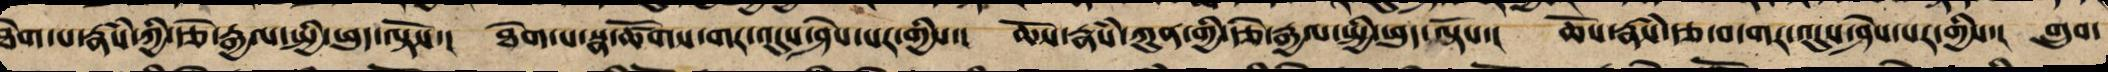ཐེག་པ་རྣཾས་ཀྱི་རྩེ་རྒྱལ་སྤྱི་ཕུད་ལྟོས་། ཐེག་པ་སྣ་ཚོགས་གར་འདུས་ཤེས་པར་གྱིས་། ཆོས་རྣཾས་ཀུན་གྱི་རྩེ་རྒྱལ་སྤྱི་ཕུད་ལྟོས་། ཆོས་རྣཾས་རྩ་བ་གར་འདུས་ཤེས་པར་གྱིས་། གྲུབ་
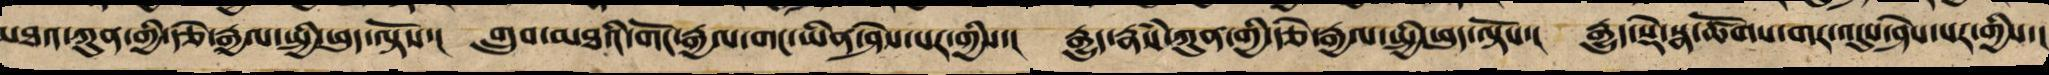མཐའ་ཀུན་གྱི་རྩེ་རྒྱལ་སྤྱི་ཕུད་ལྟོས་། གྲུབ་མཐའི་གོང་རྒྱལ་གང་ཡིན་ཤེས་པར་གྱིས་། རྒྱུད་རྣཾས་ཀུན་གྱི་རྩེ་རྒྱལ་སྤྱི་ཕུད་ལྟོས་། རྒྱུད་སྡེ་སྣ་ཚོགས་གར་འདུས་ཤེས་པར་གྱིས་།
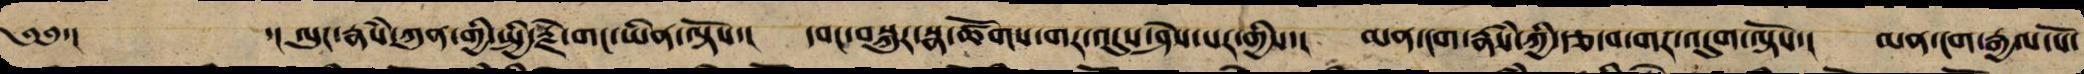༄༅་།  ་། ལུང་རྣཾས་ཀུན་གྱི་སྤྱི་རྗེ་གང་ཡིན་ལྟོས་། དབང་བསྐུར་གར་འདུས་ཤེས་པར་གྱིས་། མན་ངག་རྣཾས་ཀྱི་རྩ་བ་གར་འདུས་ལྟོས་། མན་ངག་རྒྱལ་པོ་
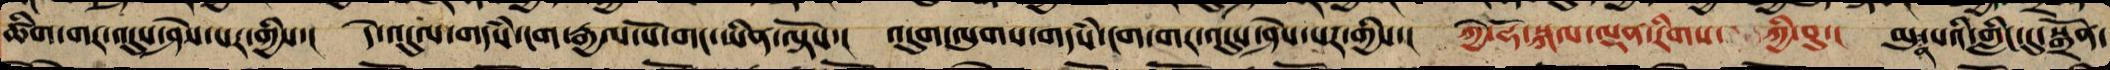ཚིག་གར་འདུས་ཤེས་པར་གྱིས་། དེ་འདུལ་གདཾས་ངག་རྒྱལ་པོ་གང་ཡིན་ལྟོས་། འདུག་ལུགས་གདཾས་ངག་གར་འདུས་ཤེས་པར་གྱིས་། ཀྱེ་ཧོ་སྐལ་ལྡན་རིགས་ཀྱི་བུ་། མུན་པའི་གླིང་དུ་སྒྲོན་
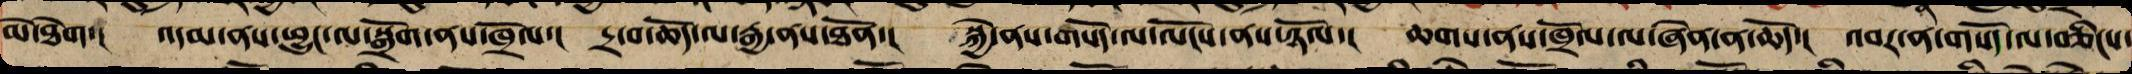མེ་ཐེག་། འདམ་ནས་ཕྱུང་ལ་སྒྲོག་ནས་ཁྲོལ་། དྲ་བ་ཆོད་ལ་རྒྱ་ནས་ཐོན་། སྐྱེ་ན་སོད་ལ་ལངས་ན་ཉོལ་། ཆགས་ནས་ཁྲོལ་ལ་ཞེན་ན་ཆོད་། འབར་ན་གསོད་ལ་བཅིངས་
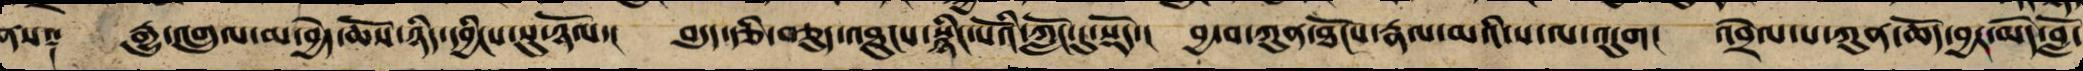ནས༑ རྒྱུ་འགྲུལ་མ་བྱེད་ཆོས་ཉིད་དབྱིངས་སུ་ཉོལ་། བདུད་རྩིའི་བཅུད་འཐུངས་སྙིང་པོའི་ཀློང་དུ་སྡོད་། བྱ་བ་ཀུན་ཐོངས་རྣལ་མའི་ས་ལ་འདུག་ འབྲེལ་པ་ཀུན་ཆོད་བྱར་མེད་བློ་
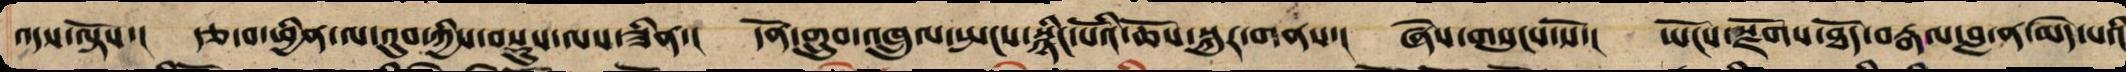འདས་ལྟོས་། རྩ་བ་ཕྱིན་ལ་འུབ་ཀྱིས་བསྡུས་ལས་རྣམས་ཟིན་། དོན་གྲུབ་འཁྲུལ་སྤངས་སྙིང་པོའི་ཆོས་སྐུར་གནས་། ཞེས་གསུངས་སོ་། ཡོངས་སྫོགས་ཐོད་བརྒལ་བླ་ན་མེད་པའི
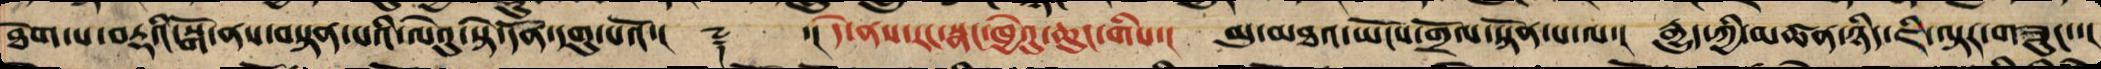ཐེག་པ་བརྡའི་སྒོ་ནས་བསྟན་པའི་ལེའུ་སྟེ་དོན་དགུ་པའོ་།། ༈ ་། དེ་ནས་རང་སྣང་ཁྱེའུ་ཆུང་གིས་། མུ་མཐའ་ཡོངས་གྲོལ་སྟོན་པ་ལ་། རྒྱུད་ཀྱི་མཚན་ཉིད་ཇི་ལྟར་གཟུང་་།
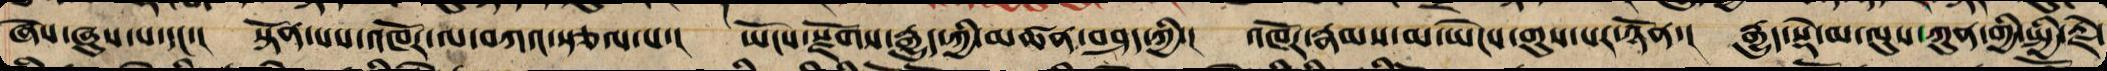ཞེས་ཞུས་པ་དང་། སྟོན་པས་འཁོར་ལ་བཀའ་སྩལ་པ་། ཡོངས་རྫོགས་རྒྱུད་ཀྱི་མཚན་བཤད་ཀྱི་། འཁོར་རྣམས་མ་ཡེངས་གུས་པར་ཉོན་། རྒྱུད་སྡེ་མ་ལུས་ཀུན་གྱི་སྤྱི་རྗེ་
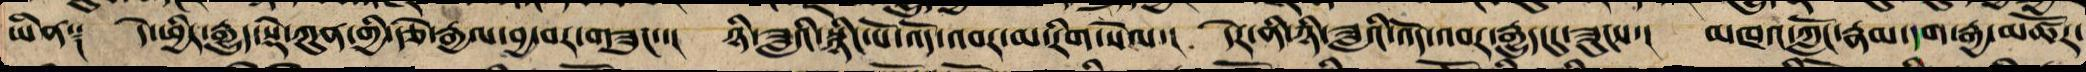ཡིན༑ དེ་ཕྱིར་རྒྱུད་སྡེ་ཀུན་གྱི་རྩེ་རྒྱལ་བྱ་བར་གཟུང་་། ཉི་ཟླའི་སྙིང་པོ་འོད་འབར་མ་རིག་སེལ་། དེ་ཕྱིར་ཉི་ཟླའི་འོད་འབར་རྒྱུད་དུ་ཟུངས་། མཁའ་ཀློང་རྣམ་དག་རྒྱ་མཚོར་
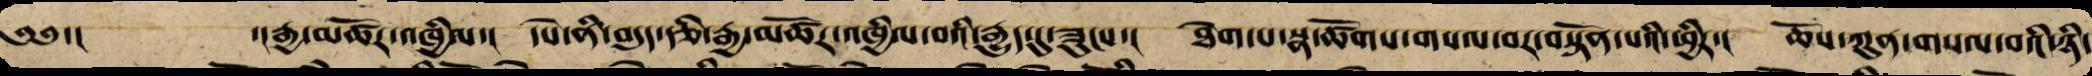༄༅་། ་།རྒྱ་མཚོར་འཁྱིལ་། དཔེ་ནི་བདུད་རྩི་རྒྱ་མཚོར་འཁྱིལ་བའི་རྒྱུད་དུ་ཟུངས་། ཐེག་པ་སྣ་ཚོགས་གསལ་བར་བསྟོན་པའི་ཕྱིར་། ཆོས་ཀུན་གསལ་བའི་ཉི་
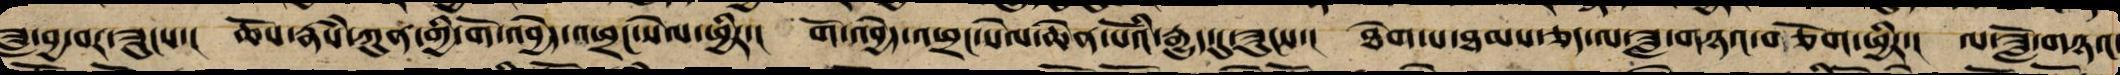ཟླ་བྱ་བར་ཟུངས་། ཆོས་རྣཾས་ཀུན་གྱི་གོ་འབྱེད་འཕྲང་སེལ་ཕྱིར་། གོ་འབྱེད་འཕྲང་སེལ་ཆེན་པོའི་རྒྱུད་དུ་ཟུངས་། ཐེག་པ་ཐམས་ཅད་ལ་ཟླ་གཉའ་གཅོག་ཕྱིར་། ལ་ཟློ་གཉའ་
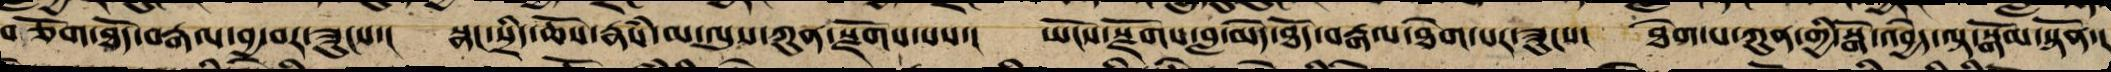གཅོག་ཐོད་བརྒལ་བྱ་བར་ཟུངས་། སྣང་སྲིད་ཆོས་རྣཾས་མ་ལུས་ཀུན་སྫོགས་པས་། ཡོངས་སྫོགས་བླ་མེད་ཐོད་བརྒལ་ཐེག་པར་ཟུངས་། ཐེག་པ་ཀུན་གྱི་སྒོ་འབྱེད་ལྟ་སྒོམ་སྟོན་།
